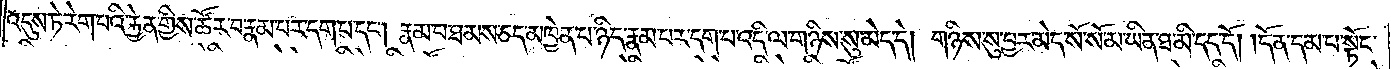འདུས་ཏེ་རེག་པའི་རྐྱེན་གྱིས་ཚོར་བ་རྣམ་པར་དག་པ་དང༌། རྣམ་པ་ཐམས་ཅད་མཁྱེན་པ་ཉིད་རྣམ་པར་དག་པ་འདི་ལ་གཉིས་སུ་མེད་དེ། གཉིས་སུ་བྱར་མེད་སོ་སོ་མ་ཡིན་ཐ་མི་དད་དོ། །དོན་དམ་པ་སྟོང་
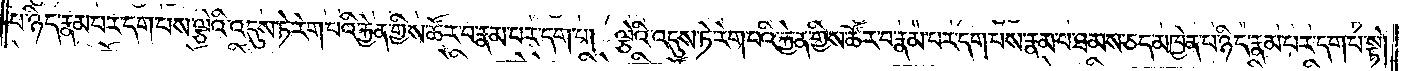པ་ཉིད་རྣམ་པར་དག་པས་ལྕེའི་འདུས་ཏེ་རེག་པའི་རྐྱེན་གྱིས་ཚོར་བ་རྣམ་པར་དག་པ། ལྕེའི་འདུས་ཏེ་རེག་པའི་རྐྱེན་གྱིས་ཚོར་བ་རྣམ་པར་དག་པས་རྣམ་པ་ཐམས་ཅད་མཁྱེན་པ་ཉིད་རྣམ་པར་དག་པ་སྟེ།
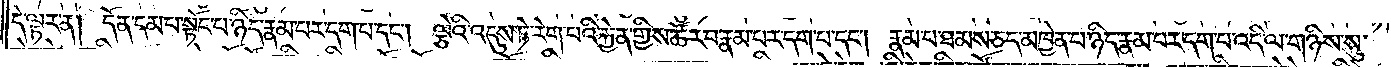དེ་ལྟར་ན། དོན་དམ་པ་སྟོང་པ་ཉིད་རྣམ་པར་དག་པ་དང༌། ལྕེའི་འདུས་ཏེ་རེག་པའི་རྐྱེན་གྱིས་ཚོར་བ་རྣམ་པར་དག་པ་དང༌། རྣམ་པ་ཐམས་ཅད་མཁྱེན་པ་ཉིད་རྣམ་པར་དག་པ་འདི་ལ་གཉིས་སུ་
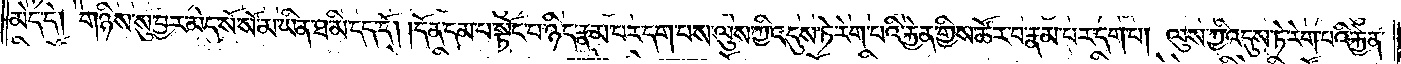མེད་དེ། གཉིས་སུ་བྱར་མེད་སོ་སོ་མ་ཡིན་ཐ་མི་དད་དོ། །དོན་དམ་པ་སྟོང་པ་ཉིད་རྣམ་པར་དག་པས་ལུས་ཀྱི་འདུས་ཏེ་རེག་པའི་རྐྱེན་གྱིས་ཚོར་བ་རྣམ་པར་དག་པ། ལུས་ཀྱི་འདུས་ཏེ་རེག་པའི་རྐྱེན་
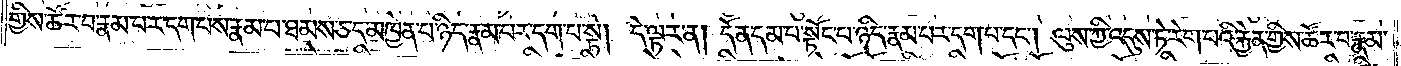གྱིས་ཚོར་བ་རྣམ་པར་དག་པས་རྣམ་པ་ཐམས་ཅད་མཁྱེན་པ་ཉིད་རྣམ་པར་དག་པ་སྟེ། དེ་ལྟར་ན། དོན་དམ་པ་སྟོང་པ་ཉིད་རྣམ་པར་དག་པ་དང༌། ལུས་ཀྱི་འདུས་ཏེ་རེག་པའི་རྐྱེན་གྱིས་ཚོར་བ་རྣམ་
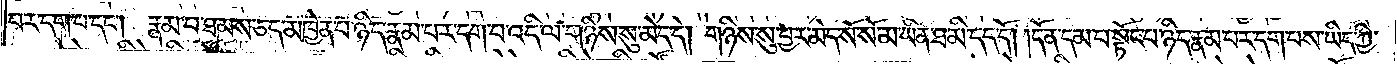པར་དག་པ་དང༌། རྣམ་པ་ཐམས་ཅད་མཁྱེན་པ་ཉིད་རྣམ་པར་དག་པ་འདི་ལ་གཉིས་སུ་མེད་དེ། གཉིས་སུ་བྱར་མེད་སོ་སོ་མ་ཡིན་ཐ་མི་དད་དོ། །དོན་དམ་པ་སྟོང་པ་ཉིད་རྣམ་པར་དག་པས་ཡིད་ཀྱི་
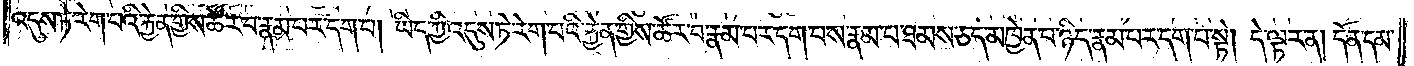འདུས་ཏེ་རེག་པའི་རྐྱེན་གྱིས་ཚོར་བ་རྣམ་པར་དག་པ། ཡིད་ཀྱི་འདུས་ཏེ་རེག་པའི་རྐྱེན་གྱིས་ཚོར་བ་རྣམ་པར་དག་པས་རྣམ་པ་ཐམས་ཅད་མཁྱེན་པ་ཉིད་རྣམ་པར་དག་པ་སྟེ། དེ་ལྟར་ན། དོན་དམ་
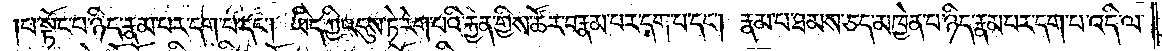པ་སྟོང་པ་ཉིད་རྣམ་པར་དག་པ་དང༌། ཡིད་ཀྱི་འདུས་ཏེ་རེག་པའི་རྐྱེན་གྱིས་ཚོར་བ་རྣམ་པར་དག་པ་དང༌། རྣམ་པ་ཐམས་ཅད་མཁྱེན་པ་ཉིད་རྣམ་པར་དག་པ་འདི་ལ་
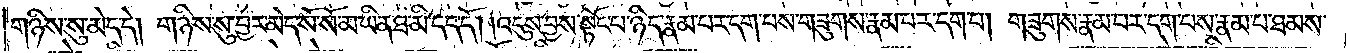གཉིས་སུ་མེད་དེ། གཉིས་སུ་བྱར་མེད་སོ་སོ་མ་ཡིན་ཐ་མི་དད་དོ། །འདུས་བྱས་སྟོང་པ་ཉིད་རྣམ་པར་དག་པས་གཟུགས་རྣམ་པར་དག་པ། གཟུགས་རྣམ་པར་དག་པས་རྣམ་པ་ཐམས་
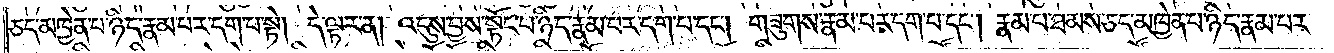ཅད་མཁྱེན་པ་ཉིད་རྣམ་པར་དག་པ་སྟེ། དེ་ལྟར་ན། འདུས་བྱས་སྟོང་པ་ཉིད་རྣམ་པར་དག་པ་དང༌། གཟུགས་རྣམ་པར་དག་པ་དང༌། རྣམ་པ་ཐམས་ཅད་མཁྱེན་པ་ཉིད་རྣམ་པར་
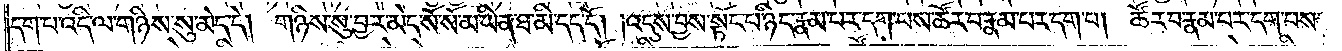དག་པ་འདི་ལ་གཉིས་སུ་མེད་དེ། གཉིས་སུ་བྱར་མེད་སོ་སོ་མ་ཡིན་ཐ་མི་དད་དོ། །འདུས་བྱས་སྟོང་པ་ཉིད་རྣམ་པར་དག་པས་ཚོར་བ་རྣམ་པར་དག་པ། ཚོར་བ་རྣམ་པར་དག་པས་
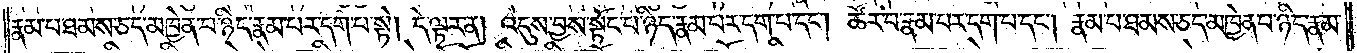རྣམ་པ་ཐམས་ཅད་མཁྱེན་པ་ཉིད་རྣམ་པར་དག་པ་སྟེ། དེ་ལྟར་ན། འདུས་བྱས་སྟོང་པ་ཉིད་རྣམ་པར་དག་པ་དང༌། ཚོར་བ་རྣམ་པར་དག་པ་དང༌། རྣམ་པ་ཐམས་ཅད་མཁྱེན་པ་ཉིད་རྣམ་
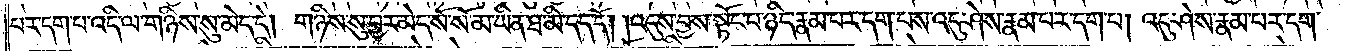པར་དག་པ་འདི་ལ་གཉིས་སུ་མེད་དེ། གཉིས་སུ་བྱར་མེད་སོ་སོ་མ་ཡིན་ཐ་མི་དད་དོ། །འདུས་བྱས་སྟོང་པ་ཉིད་རྣམ་པར་དག་པས་འདུ་ཤེས་རྣམ་པར་དག་པ། འདུ་ཤེས་རྣམ་པར་དག་
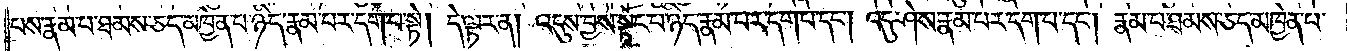པས་རྣམ་པ་ཐམས་ཅད་མཁྱེན་པ་ཉིད་རྣམ་པར་དག་པ་སྟེ། དེ་ལྟར་ན། འདུས་བྱས་སྟོང་པ་ཉིད་རྣམ་པར་དག་པ་དང༌། འདུ་ཤེས་རྣམ་པར་དག་པ་དང༌། རྣམ་པ་ཐམས་ཅད་མཁྱེན་པ་
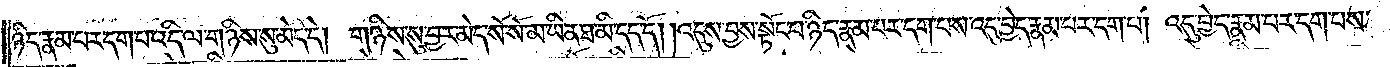ཉིད་རྣམ་པར་དག་པ་འདི་ལ་གཉིས་སུ་མེད་དེ། གཉིས་སུ་བྱར་མེད་སོ་སོ་མ་ཡིན་ཐ་མི་དད་དོ། །འདུས་བྱས་སྟོང་པ་ཉིད་རྣམ་པར་དག་པས་འདུ་བྱེད་རྣམ་པར་དག་པ། འདུ་བྱེད་རྣམ་པར་དག་པས་
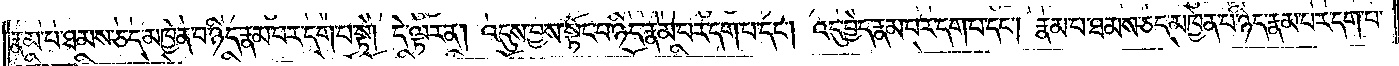རྣམ་པ་ཐམས་ཅད་མཁྱེན་པ་ཉིད་རྣམ་པར་དག་པ་སྟེ། དེ་ལྟར་ན། འདུས་བྱས་སྟོང་པ་ཉིད་རྣམ་པར་དག་པ་དང༌། འདུ་བྱེད་རྣམ་པར་དག་པ་དང༌། རྣམ་པ་ཐམས་ཅད་མཁྱེན་པ་ཉིད་རྣམ་པར་དག་པ་
